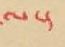ལ།
